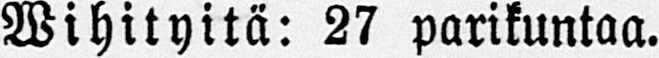Wihityitä: 27 parikuntaa.
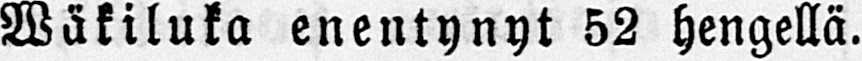Wäkiluka enentynyt 52 hengellä.
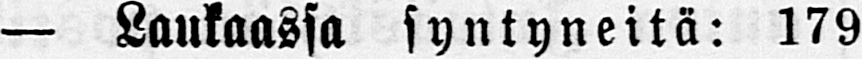— Laukaassa syntyneitä: 179
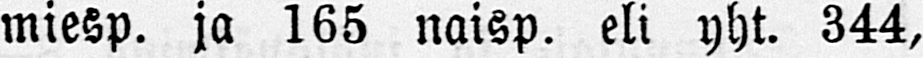miesp. ja 165 naisp. eli yht. 344,
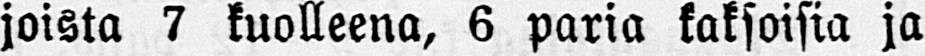joista 7 kuolleena, 6 paria kaksoisia ja
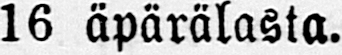16 äpärälasta.
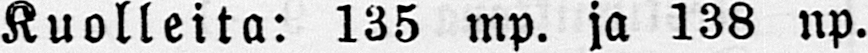Kuolleita: 135 mp. ja 138 np.
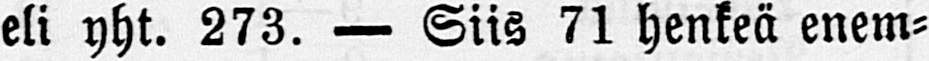eli yht. 273. — Siis 71 henkeä enem-
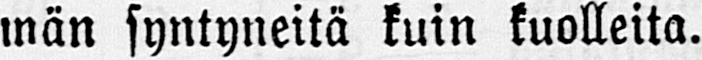män syntyneitä kuin kuolleita.
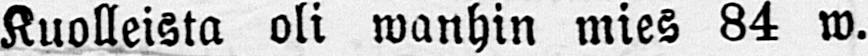Kuolleista oli wanhin mies 84 w.
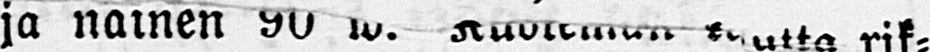ja nainen w. 90w.
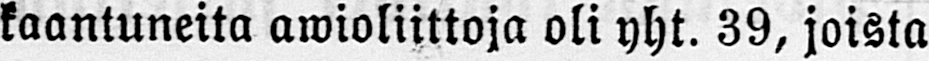kaantuneita awioliittoja oli yht. 39, joista
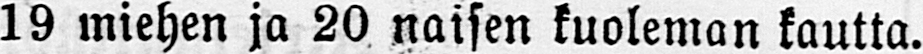19 miehen ja 20 naisen kuoleman kautta.
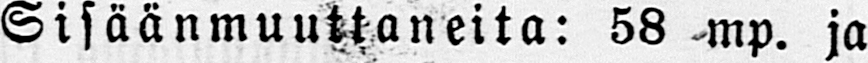Sisäänmuuttaneita: 58 -mp. ja
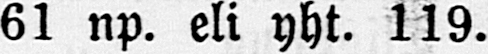61 np. eli yht. 119.
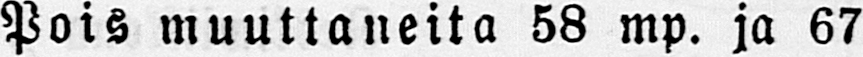Pois muuttaneita 58 mp. ja 67
